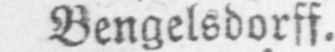Bengelsdorff.
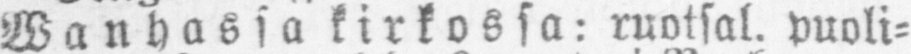Wanhassa kirkossa: ruotsal. puoli-
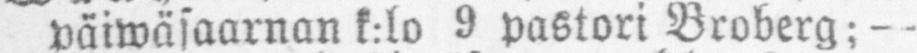väiwäsaarnan k:lo 9 pastori Broberg;-
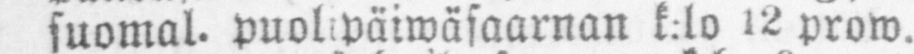suomal. puolipäiwäsaarnan k:lo 12 prow.
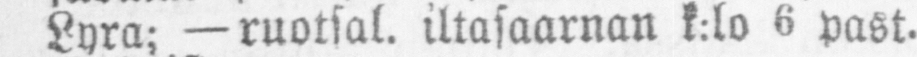Lyra; -ruotsal. iltasaarnan k:lo 6 past.
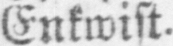Enkwist.
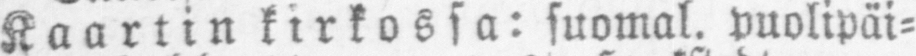Kaartin kirkossa: suomal. puolipäi-
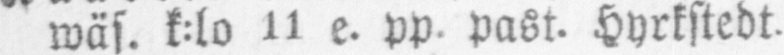wäs. k:lo 11 e. pp. past. Hyrkstedt.
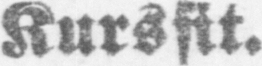Kurssit.
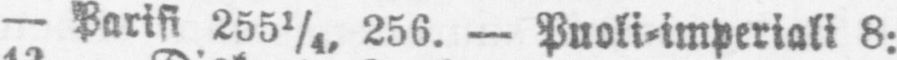— Parisi 255, 256. — Puoli-imperiali 8:
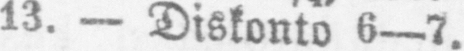13. — Diskonto 6—7.
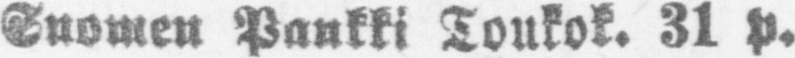Suomen Pankki Toukok. 31 p.
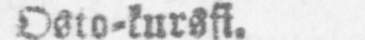Osto-kurssi.
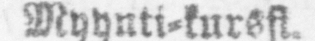Myynti-kurssi.
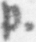p.
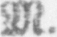M.
